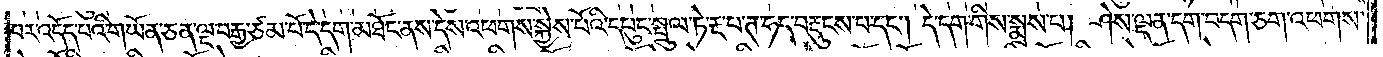པར་འདོད་པའི་གཡོན་ཅན་ལྔ་བརྒྱ་ཙམ་པོ་དེ་དག་མཐོང་ནས་དེས་འཕགས་སྐྱེས་པོའི་དཔུང་སྤྲུལ་ཏེ་རྔ་པ་ཊ་ཧད་བརྡུངས་པ་དང༌། དེ་དག་གིས་སྨྲས་པ། ཤེས་ལྡན་དག་བདག་ཅག་འཕགས་
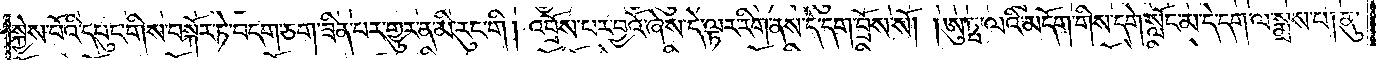སྐྱེས་པོའི་དཔུང་གིས་བསྐོར་ཏེ་བདག་ཅག་ཟིན་པར་གྱུར་ན་མི་རུང་གི །འབྲོས་པར་བྱའོ་ཞེས་དེ་ལྟར་རིག་ནས་དེ་དག་བྲོས་སོ། །ཨུཏྤ་ལའི་མདོག་གིས་དགེ་སློང་མ་དེ་དག་ལ་སྨྲས་པ། ནུ་
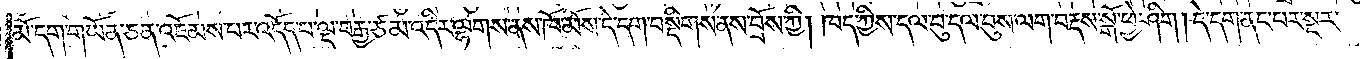མོ་དག་གཡོན་ཅན་འཇོམས་པར་འདོད་པ་ལྔ་བརྒྱ་ཙམ་འདིར་ལྷགས་ནས་ཁོ་མོས་དེ་དག་བསྡིགས་ནས་བྲོས་ཀྱི། ཁད་ཀྱིས་དལ་བུ་དལ་བུས་ལག་བརྡས་སྒོ་ཕྱེ་ཤིག །དག་ནང་ཕར་སྔར་
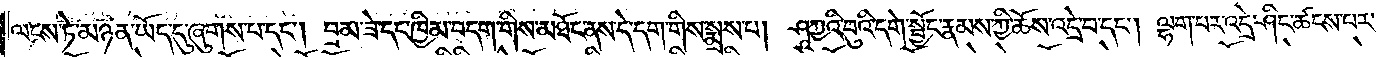ལངས་ཏེ་མཉན་ཡོད་དུ་ཞུགས་པ་དང༌། བྲམ་ཟེ་དང་ཁྱིམ་བདག་གིས་མཐོང་ནས་དེ་དག་གིས་སྨྲས་པ། ཤཱཀྱའི་བུའི་དགེ་སྦྱོང་རྣམས་ཀྱི་ཆོས་འདྲེ་བ་དང༌། ལྷག་པར་འདྲེ་ཤིང་ཚངས་པར་
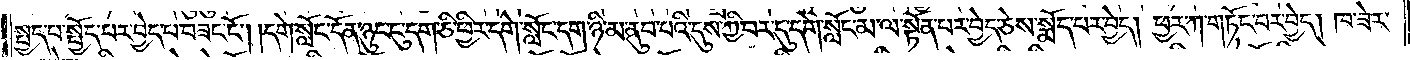སྤྱད་པ་སྤྱོད་པར་བྱེད་པ་བཟང་ངོ༌། །དགེ་སློང་དོན་ཉུང་ངུ་དག་ཅི་ཕྱིར་དགེ་སློང་དག་ཉི་མ་ནུབ་པའི་དུས་ཀྱི་བར་དུ་དགེ་སློང་མ་ལ་སྟོན་པར་བྱེད་ཅེས་སྨོད་པར་བྱེད། ཕྱར་ཀ་གཏོང་བར་བྱེད། ཁ་ཟེར་
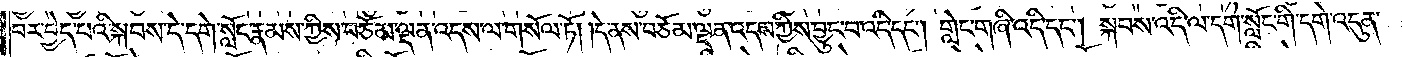བར་བྱེད་པའི་སྐབས་དེ་དགེ་སློང་རྣམས་ཀྱིས་བཅོམ་ལྡན་འདས་ལ་གསོལ་ཏོ། །དེ་ནས་བཅོམ་ལྡན་འདས་ཀྱིས་བྱུང་བ་འདི་དང༌། གླེང་གཞི་འདི་དང༌། སྐབས་འདི་ལ་དགེ་སློང་གི་དགེ་འདུན་
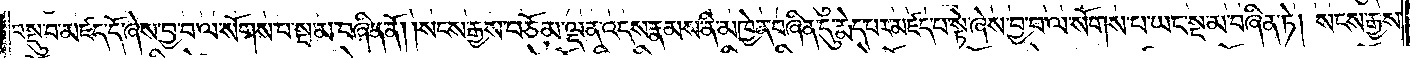བསྡུ་བ་མཛད་དོ་ཞེས་བྱ་བ་ལ་སོགས་པ་སྔ་མ་བཞིན་ནོ། །སངས་རྒྱས་བཅོམ་ལྡན་འདས་རྣམས་ནི་མཁྱེན་བཞིན་དུ་རྨེད་པར་མཛད་པ་སྟེ་ཞེས་བྱ་བ་ལ་སོགས་པ་ཡང་སྔ་མ་བཞིན་ཏེ། སངས་རྒྱས་
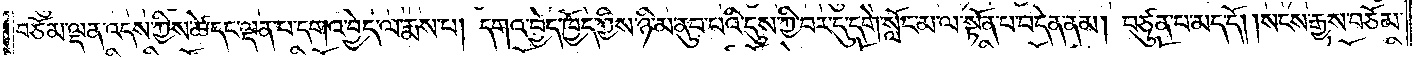བཅོམ་ལྡན་འདས་ཀྱིས་ཚེ་དང་ལྡན་པ་དགའ་བྱེད་ལ་རྨས་པ། དགའ་བྱེད་ཁྱོད་ཀྱིས་ཉི་མ་ནུབ་པའི་དུས་ཀྱི་བར་དུ་དགེ་སློང་མ་ལ་སྟོན་པ་བདེན་ནམ། བཙུན་པ་མེད་དོ། །སངས་རྒྱས་བཅོམ་
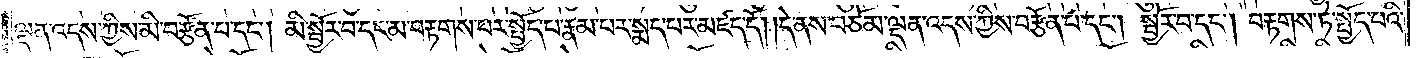ལྡན་འདས་ཀྱིས་མི་བརྩོན་པ་དང༌། མི་སྦྱོར་བ་དང་མ་བརྟགས་པར་སྤྱོད་པ་རྣམ་པར་སྨད་པར་མཛད་དོ། །དེ་ནས་བཅོམ་ལྡན་འདས་ཀྱིས་བརྩོན་པ་དང༌། སྦྱོར་བ་དང༌། བརྟགས་ཏེ་སྤྱོད་པའི་
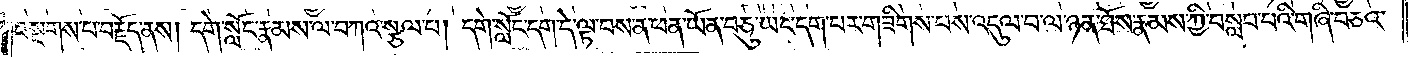བསྔགས་པ་བརྗོད་ནས། དགེ་སློང་རྣམས་ལ་བཀའ་སྩལ་བ། དགེ་སློང་དག་དེ་ལྟ་བས་ན་ཕན་ཡོན་བཅུ་ཡང་དག་པར་གཟིགས་པས་འདུལ་བ་ལ་ཉན་ཐོས་རྣམས་ཀྱི་བསླབ་པའི་གཞི་བཅའ་
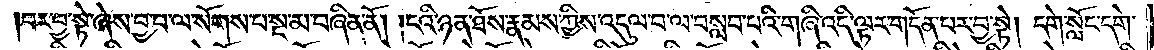བར་བྱ་སྟེ་ཞེས་བྱ་བ་ལ་སོགས་པ་སྔ་མ་བཞིན་ནོ། །ངའི་ཉན་ཐོས་རྣམས་ཀྱིས་འདུལ་བ་ལ་བསླབ་པའི་གཞི་འདི་ལྟར་གདོན་པར་བྱ་སྟེ། དགེ་སློང་དགེ་
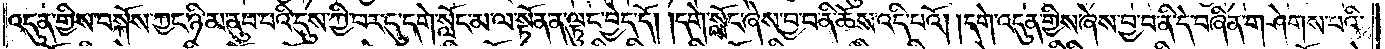འདུན་གྱིས་བསྐོས་ཀྱང་ཉི་མ་ནུབ་པའི་དུས་ཀྱི་བར་དུ་དགེ་སློང་མ་ལ་སྟོན་ན་ལྟུང་བྱེད་དོ། །དགེ་སློང་ཞེས་བྱ་བ་ནི་ཆོས་འདི་པའོ། །དགེ་འདུན་གྱིས་ཞེས་བྱ་བ་ནི་དེ་བཞིན་གཤེགས་པའི་
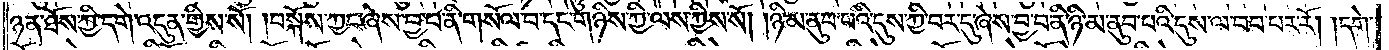ཉན་ཐོས་ཀྱི་དགེ་འདུན་གྱིས་སོ། །བསྐོས་ཀྱང་ཞེས་བྱ་བ་ནི་གསོལ་བ་དང་གཉིས་ཀྱི་ལས་ཀྱིས་སོ། །ཉི་མ་ནུབ་པའི་དུས་ཀྱི་བར་དུ་ཞེས་བྱ་བ་ནི་ཉི་མ་ནུབ་པའི་དུས་ལ་བབ་པར་རོ། །དགེ་
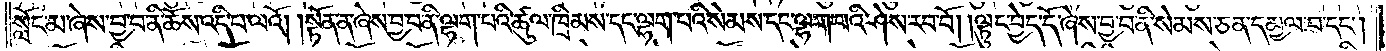སློང་མ་ཞེས་བྱ་བ་ནི་ཆོས་འདི་པ་ལའོ། །སྟོན་ན་ཞེས་བྱ་བ་ནི་ལྷག་པའི་ཚུལ་ཁྲིམས་དང་ལྷག་པའི་སེམས་དང་ལྷག་པའི་ཤེས་རབ་བོ། །ལྟུང་བྱེད་དོ་ཞེས་བྱ་བ་ནི་སེམས་ཅན་དམྱལ་བ་དང༌།
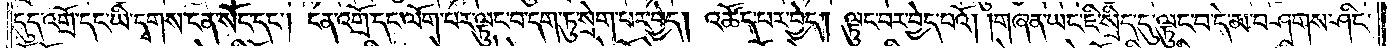དུད་འགྲོ་དང་ཡི་དྭགས་ངན་སོང་དང༌། ངན་འགྲོ་དང་ལོག་པར་ལྟུང་བ་དག་ཏུ་སྲེག་པར་བྱེད། འཚོད་པར་བྱེད། ལྟུང་བར་བྱེད་པའོ། །གཞན་ཡང་ཇི་སྲིད་དུ་ལྟུང་བ་དེ་མ་བཤགས་ཤིང་
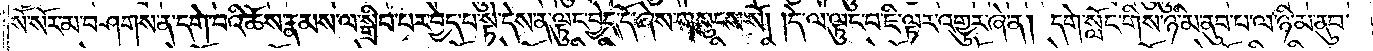སོ་སོར་མ་བཤགས་ན་དགེ་བའི་ཆོས་རྣམས་ལ་སྒྲིབ་པར་བྱེད་པ་སྟེ་དེས་ན་ལྟུང་བྱེད་དོ་ཞེས་གསུངས་སོ། །དེ་ལ་ལྟུང་བ་ཇི་ལྟར་འགྱུར་ཞེ་ན། དགེ་སློང་གིས་ཉི་མ་ནུབ་པ་ལ་ཉི་མ་ནུབ་
